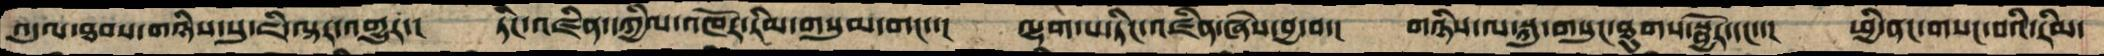འདུལ་ཐབས་གཉིས་སུ་ཇི་ལྟར་འགྱུར་།  ཏིང་འཛིན་དཀྱིལ་འཁོར་རིམ་གསུམ་གང་་།  ལྷག་པ་ཏིང་འཛིན་ཞེས་བྱ་བ་།  གཉིས་ལ་སྐུ་གསུང་ཐུགས་སྦྱོར་དང་་།  ཕྱི་ནང་གསང་བའི་རིམ་
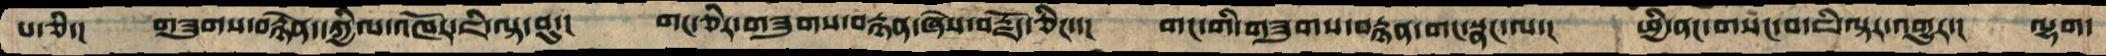པ་ཅི་།  གཟུགས་བརྙེན་དཀྱིལ་འཁོར་ཇི་ལྟ་བུ་།  གང་ཅིར་གཟུགས་བརྙན་ཞེས་བརྗོད་ཅིང་་།  གང་གི་གཟུགས་བརྙན་གང་སྣང་ལ་།  ཕྱི་ནང་གསང་བ་ཇི་ལྟར་འགྱུར་།  ལྷག་
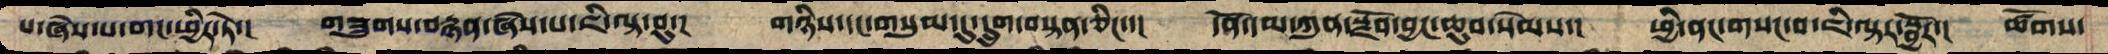པ་ཞེས་པ་གང་ཕྱིར་ཏེ་།  གཟུགས་བརྙན་ཞེས་པ་ཇི་ལྟ་བུ་།  གཉིས་དང་གསུམ་དུ་དྲུག་བསྟན་ཅིང་་།  དོན་དམ་ཀུན་སྫོབ་བྱང་ཆུབ་སེམས་།  ཕྱི་ནང་གསང་བ་ཇི་ལྟར་སྦྱོར་།  ཚོགས་
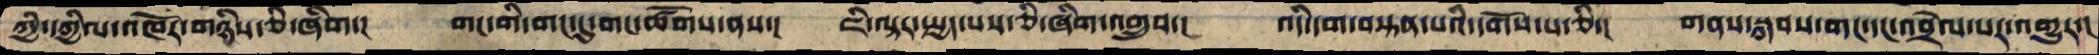ཀྱི་དཀྱིལ་འཁོར་གཉིས་ཅི་ཞིག་།  གང་གི་གང་དུ་གང་ཚོགས་ནས་།  ཇི་ལྟར་སྤྱད་པས་ཅི་ཞིག་འགྲུབ་།  འདི་དག་བསྟན་པའི་དགོས་པ་ཅི་།  གནས་སྐབས་གང་དང་འབྲེལ་པར་འགྱུར་།
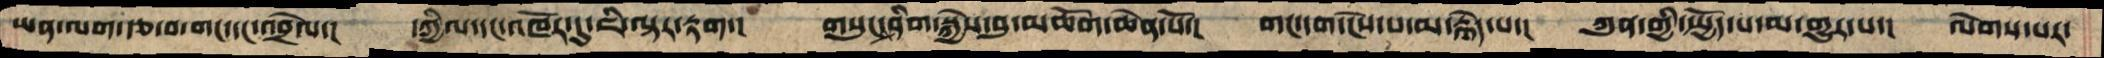ཡན་ལག་རྩ་བ་གང་དང་འབྲེལ་།  དཀྱིལ་དང་འཁོར་དུ་ཇི་ལྟར་རྟག་།  གསུང་ཤིག་སྐྱེས་བུ་མཆོག་ཆེན་པོ་།   གང་དག་ངེས་པ་མ་རྙེད་པ་།  ཀུན་གྱི་སྤྱོད་པ་མ་གྱུར་པ་།  ལེགས་པར་
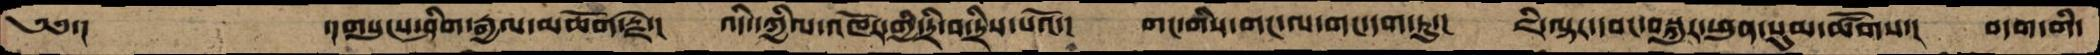༄༅་།      ་།གསུངས་ཤིག་རྒྱལ་མཆོག་རྗེ་།  འདི་དཀྱིལ་འཁོར་གྱི་དྲི་བ་དྲིས་པའོ་།  གང་གིས་གང་ལ་གང་དག་ཏུ་།  ཇི་ལྟར་དབང་བསྐུར་ཕུན་སུམ་ཚོགས་།  བདག་གི་
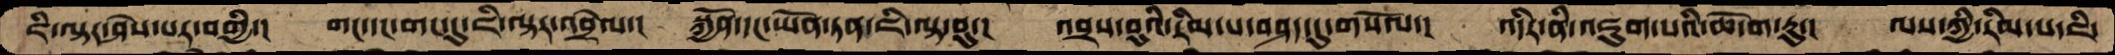ཇི་ལྟར་ཤེས་པར་བགྱི་།  གང་དང་གང་དུ་ཇི་ལྟར་འབྲེལ་།  སྐྱོན་དང་ཡོན་ཏན་ཇི་ལྟ་བུ་།  འབྲས་བུའི་རིམ་པ་བཤད་དུ་གསོལ་།  འདིར་ནི་འཇུག་པའི་ཆོ་ག་རུ་།  ལས་ཀྱི་རིམ་པ་ཇི་
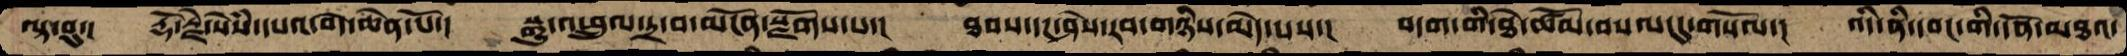ལྟ་བུ་།  རྡོ་རྗེ་སེཾས་དཔའ་བདེ་ཆེན་པོ་།  སྒྱུ་འཕྲུལ་དྲ་བ་མངོན་སྫོགས་པ་།  ཐབས་དང་ཤེས་རབ་གཉིས་མེད་པས་།  བདག་གི་ཐེ་ཚོམ་བསལ་དུ་གསོལ་།  འདི་ནི་དབང་གི་དོན་མཐའ་
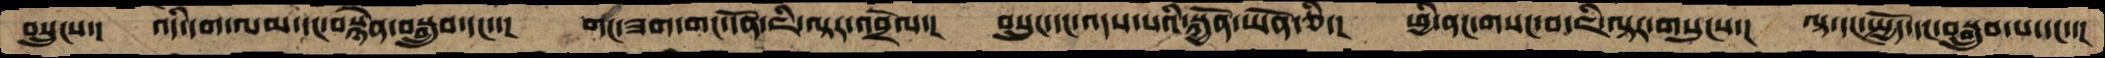བསྲུངས་།  འདི་དག་ལམ་དང་བརྙེན་བསྒྲུབ་དང་་།  གང་ཟག་གང་དོན་ཇི་ལྟར་འབྲེལ་།  བསྲུང་དང་འདས་པའི་སྐྱོན་ཡོན་ཅི་།  ཕྱི་ནང་གསང་བ་ཇི་ལྟར་གསུངས་།  ལྟ་དང་སྤྱོད་དང་བསྒྲུབ་པ་དང་་།
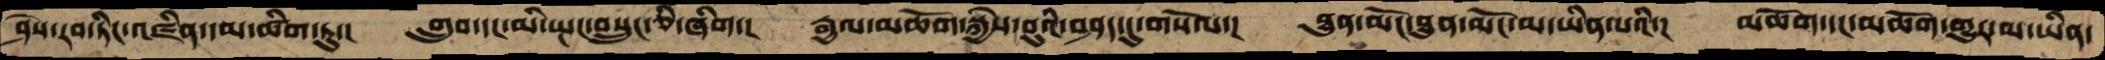ཤེས་རབ་ཏིང་འཛིན་དམ་ཚིག་ཏུ་།  གྲུབ་དང་མི་སྤང་བསྲུང་ཅི་ཞིག་།  རྒྱལ་མཆོག་སྐྱེས་བུའི་བཤད་དུ་གསོལ་།  ཐུན་མོང་ཐུན་མོང་མ་ཡིན་པའི་།  མཆོག་དང་མཆོག་གྱུར་མ་ཡིན་
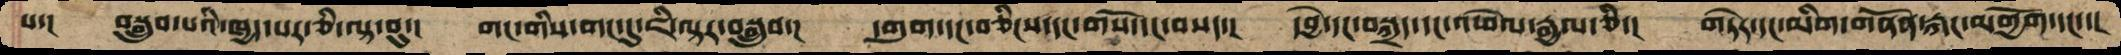པ་།  བསྒྲུབ་པའི་ཁྱད་པར་ཅི་ལྟ་བུ་།  གང་གིས་གང་དུ་ཇི་ལྟར་བསྒྲུབ་།  དགུག་དང་བཅིངས་དང་གསོ་དང་བསད་།  དབྱེ་དང་བསྐྲད་དང་འཕེལ་རྒྱལ་ཅི་།  གཏེར་དང་མིག་གནོན་རྐང་མགྱོག་དང་་།
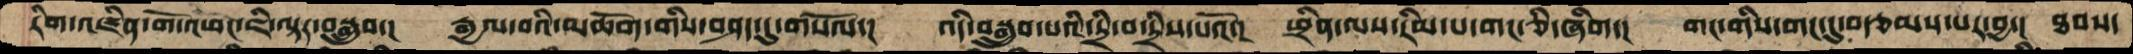རིག་འཛིན་གོ་འཕང་ཇི་ལྟར་བསྒྲུབ་།  རྒྱལ་བའི་མཆོག་གིས་བཤད་དུ་གསོལ་།  འདི་བསྒྲུབ་པའི་དྲི་བ་དྲིས་པའོ་།  ཕྲིན་ལས་རིམ་པ་གང་ཅི་ཞིག་།  གང་གིས་གང་དུ་བརྩམས་པར་བྱ་།  ཐབས་
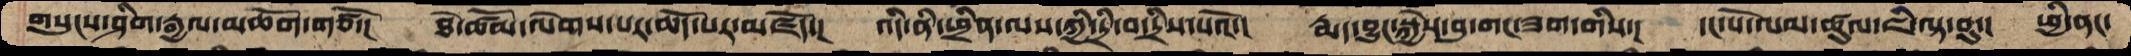གསུངས་ཤིག་རྒྱལ་མཆོག་གཙོ་།  ཐེ་ཚོམ་ལེགས་པར་ཆོད་པར་མཛོད་།  འདི་ནི་ཕྲིན་ལས་ཀྱི་དྲི་བ་དྲིས་པའོ་།  རྨད་བྱུང་སྐྱེས་བུ་གང་ཟག་གིས་།  དང་པོ་ལམ་ཚུལ་ཇི་ལྟ་བུ་།  ཕྱི་ནང་
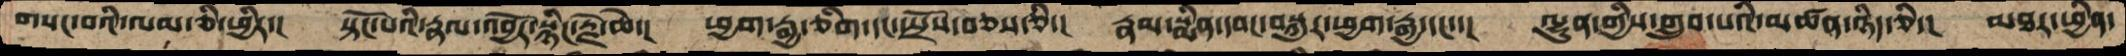གསང་བའི་ལམ་ཅི་ཕྱིར་།  སྟོང་པའི་རྣལ་འབྱོར་སྙིང་རྗེ་ཆེ་།  ཕྱག་རྒྱ་ཅིག་དང་སྤྲོས་བཅས་ཅི་།  རྣམ་སྨིན་དབང་བསྐུར་ཕྱག་རྒྱ་དང་་།  ལྷུན་གྱིས་གྲུབ་པའི་མཚན་ཉིད་ཅི་།  མཐར་ཕྱིན་
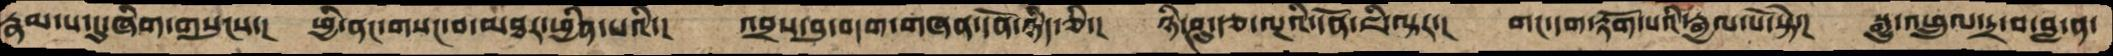རྣམ་པ་དུ་ཞིག་གསུངས་།  ཕྱི་ནང་གསང་བ་མཐར་ཕྱིན་པའི་།  འབྲས་བུ་བདག་གཞན་དོན་ཉིད་ཅི་།  ཉི་ཤུ་རྩ་ལྔའི་དོན་ཇི་ལྟར་།  གང་དག་རྟོག་པའི་རྒྱལ་པོ་སྟེ་།  སྒྱུ་འཕྲུལ་དྲ་བ་བླ་ན་
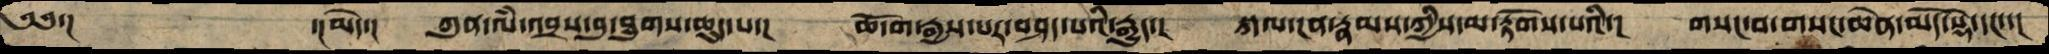༄༅་།    ་།མེད་།  ཀུན་ལཾ་འབྲས་བུ་ཐུགས་ཆུད་པ་།  ཆོ་ག་རྒྱས་པར་བཤད་པའི་རྒྱུད་།  སྐལ་ངན་རྣམས་ཀྱིས་མ་རྟོགས་པའི་།  གསང་བ་གསང་ཆེན་མདོ་སྡེ་དང་་།
